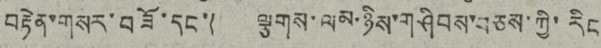བརྟེན་གསར་བཟོ་དང་། ལྕགས་ལམ་ཉིས་གཤིབས་བཅས་ཀྱི་རིང
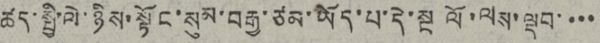ཚད་སྤྱི་ལེ་ཉིས་སྟོང་སུམ་བརྒྱ་ཙམ་ཡོད་པ་དེ་སྔ ལོ་ལས་ལྡབ་་་་
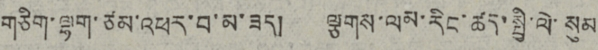གཅིག་ལྷག་ཙམ་འཕར་བ་མ་ཟད། ལྕགས་ལམ་རིང་ཚད་སྤྱི་ལེ་སུམ
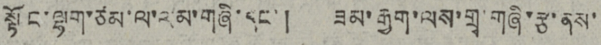སྟོང་ལྷག་ཙམ་ལ་ལམ་གཞི་དང་། ཟམ་རྒྱག་ལས་གྲྭ་གཞི་རྩ་ནས་
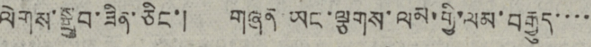ལེགས་སྒྲུབ་ཟིན་ཅིང་། གཞན ཡང་ལྕགས་ལམ་གྱི་ལམ་བརྒྱུད་་་་
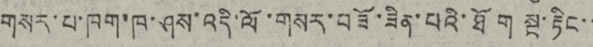གསར་པ་ཁག་ཁ་ཤས་འདི་ལོ་གསར་བཟོ་ཟིན་པའི་ཐོག སྔ་རྟིང་
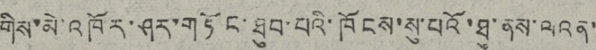གིས་མེ་འཁོར་ཤར་གཏོང་ཐུབ་པའི་ཁོངས་སུ་པའོ་ཐུ་ནས་ལའན་
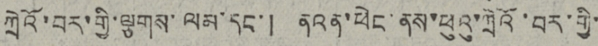ཀྲེའོ་བར་གྱི་ལྕགས་ལམ་དང་། ནའན་ཕེང་ནས་ཕུའུ་ཀྲེའོ་བར་གྱི་
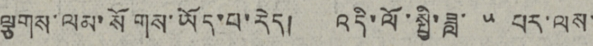ལྕགས་ལམ་སོགས་ཡོད་པ་རེད། འདི་ལོ་སྤྱི་ཟླ་ ༥ པར་ལས་
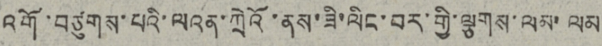འགོ་བཙུགས་པའི་ལའན་ཀྲེའོ་ནས་ཟི་ལིང་བར་གྱི་ལྕགས་ལམ་ལམ
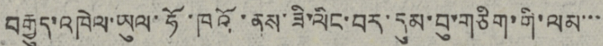བརྒྱུད་འཁེལ་ཡུལ་ཧོ་ཁའོ་ནས་ཟི་ལིང་བར་དུམ་བུ་གཅིག་གི་ལམ་་་
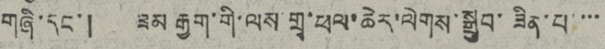གཞི་དང་། ཟམ རྒྱག་གི་ལས་གྲྭ་ཕལ་ཆེར་ལེགས་སྒྲུབ་ཟིན་པ་་་་
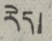རེད།
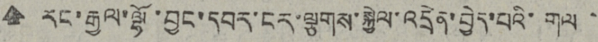🠹 རང་རྒྱལ་ལྷོ་བྱང་དབར་ངར་ལྕགས་སྐྱེལ་འདྲེན་བྱེད་པའི་གལ་
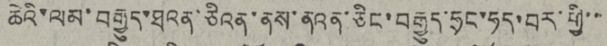ཆེའི་ལམ་བརྒྱུད་ཐའན་ཅིའན་ནས་ནའན་ཅིང་བརྒྱུད་ཧྲང་ཧད་བར་གྱི་་
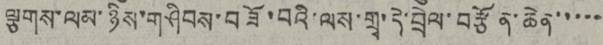ལྕགས་ལམ་ཉིས་གཤིབས་བཟོ་བའི་ལས་གྲྭ་དེ་བྲེལ་བརྩོན་ཆེན་་་་་
